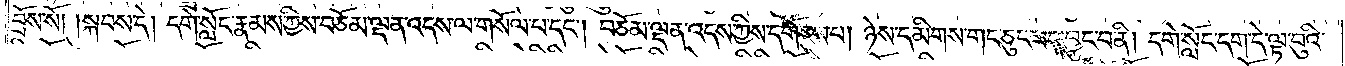བྲོས་སོ། །སྐབས་དེ། དགེ་སློང་རྣམས་ཀྱིས་བཅོམ་ལྡན་འདས་ལ་གསོལ་པ་དང༌། བཅོམ་ལྡན་འདས་ཀྱིས་དགོངས་པ། ཉེས་དམིགས་གང་ཅུང་ཟད་བྱུང་བ་ནི། དགེ་སློང་དག་དེ་ལྟ་བུའི་
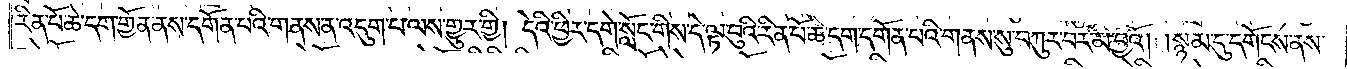རིན་པོ་ཆེ་དག་གྱོན་ནས་དགོན་པའི་གནས་ན་འདུག་པ་ལས་གྱུར་གྱི། དེའི་ཕྱིར་དགེ་སློང་གིས་དེ་ལྟ་བུའི་རིན་པོ་ཆེ་དག་དགོན་པའི་གནས་སུ་བཀུར་བར་མི་བྱའོ། །སྙམ་དུ་དགོངས་ནས་
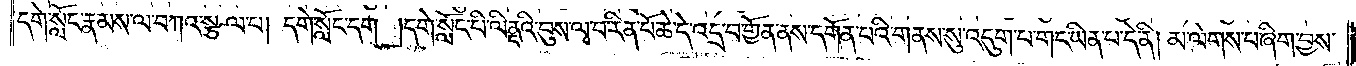དགེ་སློང་རྣམས་ལ་བཀའ་སྩལ་པ། དགེ་སློང་དག །དགེ་སློང་པི་ལིནདའི་བུས་ལྭ་བ་རིན་པོ་ཆེ་དེ་འདྲ་བ་གྱོན་ནས་དགོན་པའི་གནས་སུ་འདུག་པ་གང་ཡིན་པ་དེ་ནི། མ་ལེགས་པ་ཞིག་བྱས་
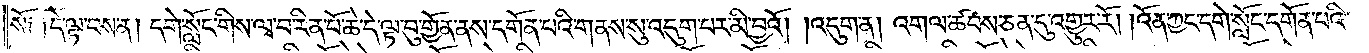སོ༑ ༑དེ་ལྟ་བས་ན། དགེ་སློང་གིས་ལྭ་བ་རིན་པོ་ཆེ་དེ་ལྟ་བུ་གྱོན་ནས་དགོན་པའི་གནས་སུ་འདུག་པར་མི་བྱའོ། །འདུག་ན། འགལ་ཚབས་ཅན་དུ་འགྱུར་རོ། །འོན་ཀྱང་དགེ་སློང་དགོན་པའི་
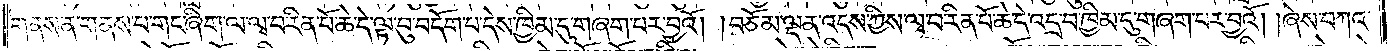གནས་ན་གནས་པ་གང་ཞིག་ལ་ལྭ་བ་རིན་པོ་ཆེ་དེ་ལྟ་བུ་བདོག་པ་དེས་ཁྱིམ་དུ་གཞག་པར་བྱའོ། །བཅོམ་ལྡན་འདས་ཀྱིས་ལྭ་བ་རིན་པོ་ཆེ་དེ་འདྲ་བ་ཁྱིམ་དུ་གཞག་པར་བྱའོ། །ཞེས་བཀའ་
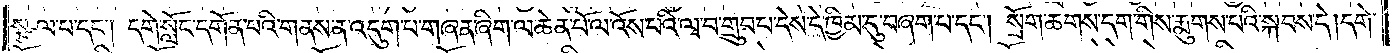སྩལ་པ་དང༌། དགེ་སློང་དགོན་པའི་གནས་ན་འདུག་པ་གཞན་ཞིག་ལ་ཆེན་པོ་ལ་འོས་པའི་ལྭ་བ་གྲུབ་པ་དེས་དེ་ཁྱིམ་དུ་བཞག་པ་དང༌། སྲོག་ཆགས་དག་གིས་རྨུགས་པའི་སྐབས་དེ། དགེ་
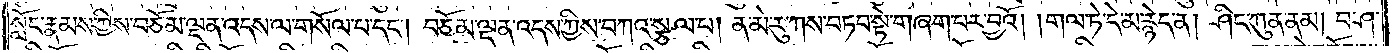སློང་རྣམས་ཀྱིས་བཅོམ་ལྡན་འདས་ལ་གསོལ་པ་དང༌། བཅོམ་ལྡན་འདས་ཀྱིས་བཀའ་སྩལ་པ། ན་མེ་རུ་ཀས་བཏབ་སྟེ་གཞག་པར་བྱའོ། །གལ་ཏེ་དེ་མ་རྙེད་ན། ཤིང་ཀུན་ནམ། བ་ཤ་
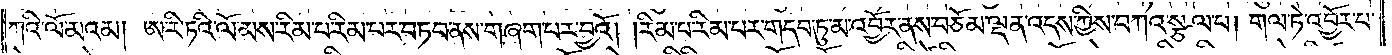ཀའི་ལོ་མའམ། ཨ་རི་ཏའི་ལོ་མས་རིམ་པ་རིམ་པར་བཏབ་ནས་གཞག་བར་བྱའོ། །རིམ་པ་རིམ་པར་གདབ་ཏུ་མ་འབྱོར་ནས་བཅོམ་ལྡན་འདས་ཀྱིས་བཀའ་སྩལ་པ། གལ་ཏེ་འབྱོར་པ་
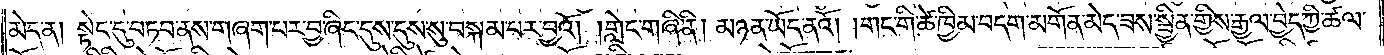མེད་ན། སྟེང་དུ་བཏབ་ནས་གཞག་པར་བྱ་ཞིང་དུས་དུས་སུ་བསྐམ་པར་བྱའོ། །གླེང་གཞི་ནི། མཉན་ཡོད་ནའོ། །གང་གི་ཚེ་ཁྱིམ་བདག་མགོན་མེད་ཟས་སྦྱིན་གྱིས་རྒྱལ་བྱེད་ཀྱི་ཚལ་
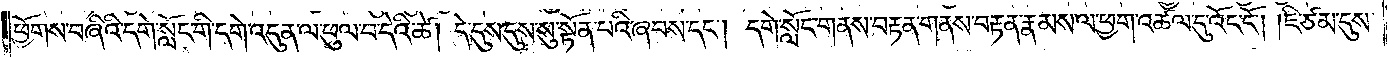ཕྱོགས་བཞིའི་དགེ་སློང་གི་དགེ་འདུན་ལ་ཕུལ་བ་དེའི་ཚེ། དེ་དུས་དུས་སུ་སྟོན་པའི་ཞབས་དང༌། དགེ་སློང་གནས་བརྟན་གནས་བརྟན་རྣམས་ལ་ཕྱག་འཚལ་དུ་འོང་ངོ༌། །ཇི་ཙམ་དུས་
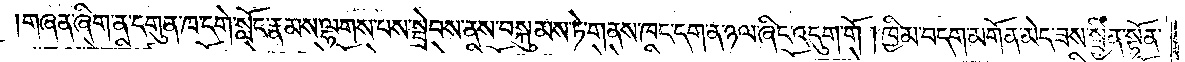གཞན་ཞིག་ན་དགུན་ཁ་དགེ་སློང་རྣམས་ལྷགས་པས་སྦྲེབས་ནས་བསྐུམས་ཏེ་གནས་ཁང་དག་ན་ཉལ་ཞིང་འདུག་གོ །ཁྱིམ་བདག་མགོན་མེད་ཟས་སྦྱིན་སྟོན་
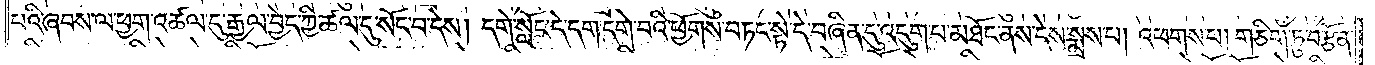པའི་ཞབས་ལ་ཕྱག་འཚལ་དུ་རྒྱལ་བྱེད་ཀྱི་ཚལ་དུ་སོང་བ་དེས། དགེ་སློང་དེ་དག་དགེ་བའི་ཕྱོགས་བཏང་སྟེ་དེ་བཞིན་དུ་འདུག་པ་མཐོང་ནས་དེས་སྨྲས་པ། འཕགས་པ། གཅིག་ཏུ་བརྩོན་
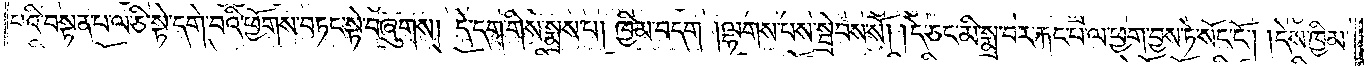པའི་བསྟན་པ་ལ་ཅི་སྟེ་དགེ་བའི་ཕྱོགས་བཏང་སྟེ་བཞུགས། དེ་དག་གིས་སྨྲས་པ། ཁྱིམ་བདག །ལྷགས་པས་སྦྲེབས་སོ། །དེ་ཅང་མི་སྨྲ་བར་རྐང་པ་ལ་ཕྱག་བྱས་ཏེ་སོང་ངོ༌། །དེས་ཁྱིམ་
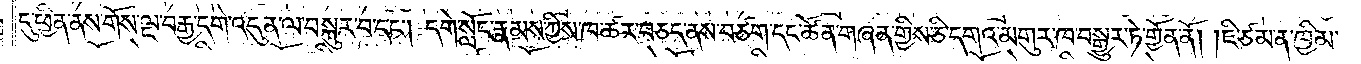དུ་ཕྱིན་ནས་གོས་ལྔ་བརྒྱ་དགེ་འདུན་ལ་བསྐུར་བ་དང༌། དགེ་སློང་རྣམས་ཀྱིས་ཁ་ཚར་བཅད་ནས་བཙག་དང་ཚོན་གཞན་གྱིས་ཅི་དགའ་མགུར་ཁ་བསྒྱུར་ཏེ་གྱོན་ནོ། །ཇི་ཙམ་ན་ཁྱིམ་
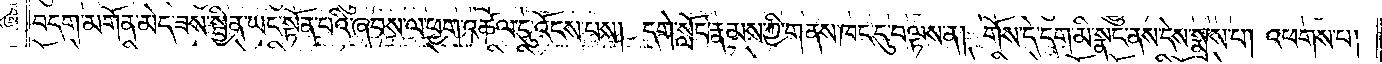བདག་མགོན་མེད་ཟས་སྦྱིན་ཡང་སྟོན་པའི་ཞབས་ལ་ཕྱག་འཚལ་དུ་འོངས་པས། དགེ་སློང་རྣམས་ཀྱི་གནས་ཁང་དུ་བལྟས་ན། གོས་དེ་དག་མི་སྣང་ནས་དེས་སྨྲས་པ། འཕགས་པ།
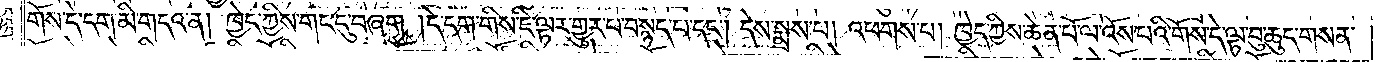གོས་དེ་དག་མི་གདའ་ན། ཁྱེད་ཀྱིས་གང་དུ་བཞག །དེ་དག་གིས་ཇི་ལྟར་གྱུར་པ་བསྙད་པ་དང༌། དེས་སྨྲས་པ། འཕགས་པ། ཁྱེད་ཀྱིས་ཆེན་པོ་ལ་འོས་པའི་གོས་དེ་ལྟ་བུ་ཆུད་གསན་
